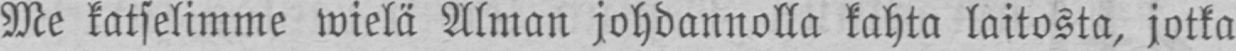Me katselimme wielä Alman johdannolla kahta laitosta, jotka
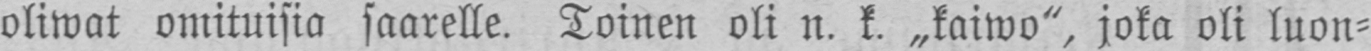oliwat omituisia saarelle. Toinen oli n.k. „kaiwo", joka oli luon-
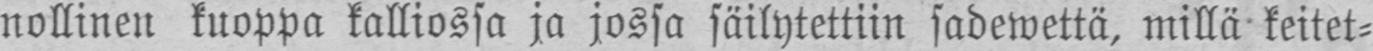nollinen kuoppa kalliossa ja jossa säilytettiin sadewettä, millä keitet-
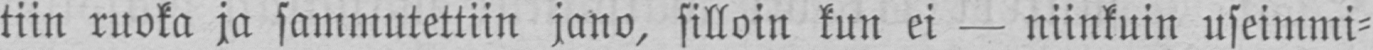tiin ruoka ja sammutettiin jano, silloin kun ei — niinkuin useimmi-
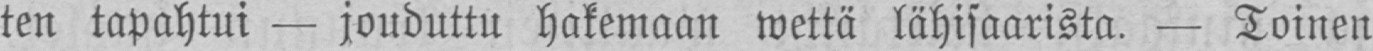ten tapahtui — jouduttu hakemaan wettä lähisaarista. — Toinen
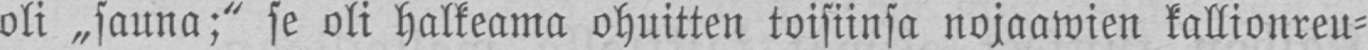oli „sauna;" se oli halkeama ohuitten toisiinsa nojaawien kallionreu-
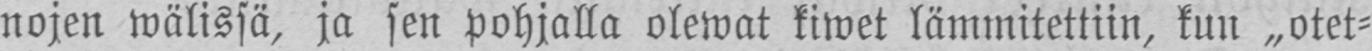nojen wälissä, ja sen pohjalla olewat kiwet lämmitettiin, kun Otet-
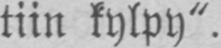tiin kylpy".
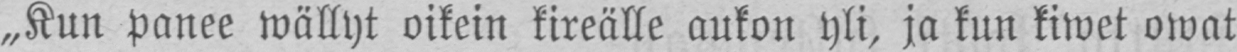„Kun panee wällyt oikein kireälle aukon yli, ja kun kiwet owat
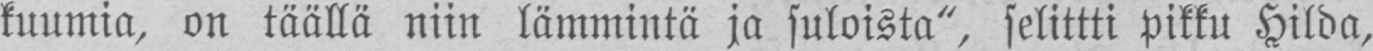kuumia, on täällä niin lämmintä ja suloista", selittti Pikku Hilda,
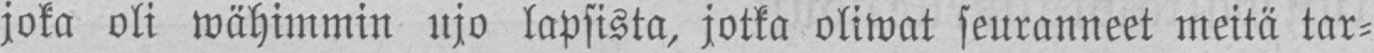joka oli wähimmin ujo lapsista, jotka oliwat seuranneet meitä tar-
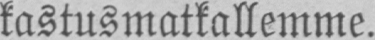kastusmatkallemme.
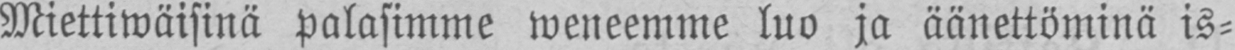Miettiwäisinä palasimme weneemme luo ja äänettöminä is-
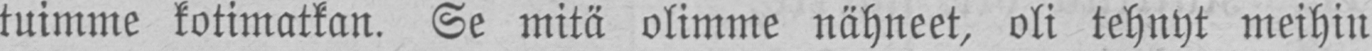tuimme kotimatkan. Se mitä olimme nähneet, oli tehnyt meihin
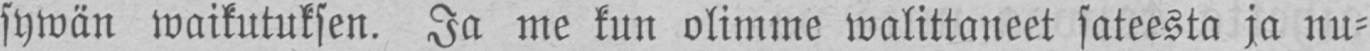sywän waikutuksen. Ja me kun olimme walittaneet sateesta ja nu-
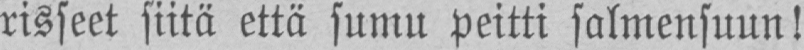risseet siitä että sumu peitti salmensuun!
